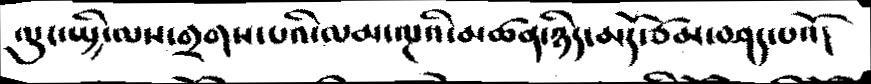ལུང་སྤྱི་ལས་གྲགས་པའི་ལམ་ལྔའི་མཚན་ཉིད་མདོ་ཙམ་བཤད་པའོ།
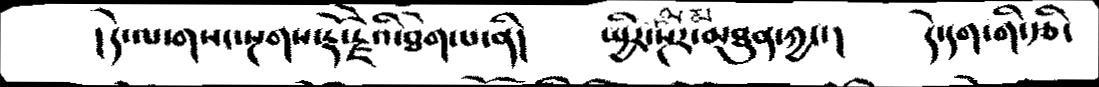།དེ་ལ་གསང་སྔགས་རྡོ་རྗེའི་ཐེག་པ་ནི།   སྤྱིར་ལམ་སྔར་མཐུན་ཀྱང་།   དེ་དག་གི་རྩི་
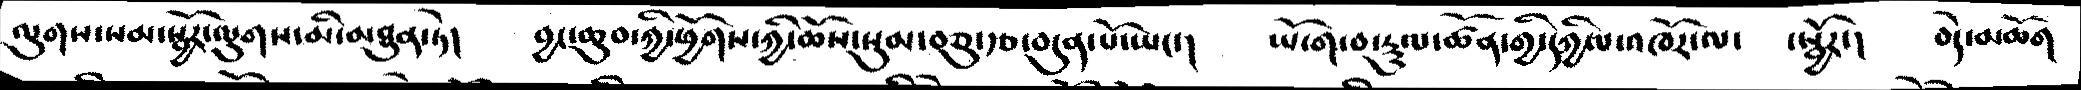ལུགས་སམ་སྦྱོར་ལུགས་མི་མཐུན་ཏེ།   བྱང་ཆུབ་ཀྱི་ཕྱོགས་ཀྱི་ཆོས་སུམ་བཅུ་རྩ་བདུན་པོ་ཡང་།   ཡོ་ག་བ་རྡུལ་ཚོན་གྱི་དཀྱིལ་འཁོར་ལ་  ་སྦྱོར་།  བདེ་མཆོག
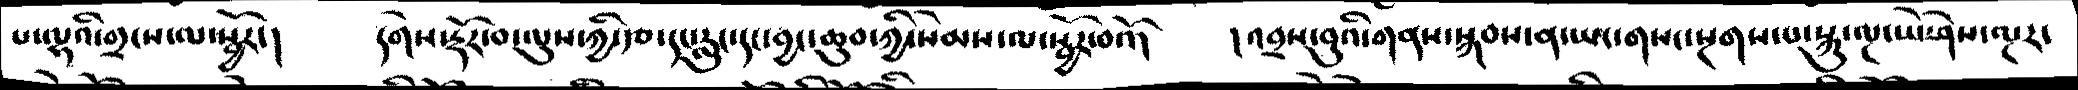པ་ལྷའི་གྲངས་ལ་སྦྱོར་།   དགེས་རྡོར་བ་ལུས་ཀྱི་རྩ་དང་རླུང་དང་བྱང་ཆུབ་ཀྱི་སེམས་ལ་སྦྱོར་བའོ།   །འབྲས་བུའི་གནས་སྐབས་ན་ཡང་གསང་སྔགས་པ་སྐུ་ལྔ་ཡེ་ཤེས་ལྔར་
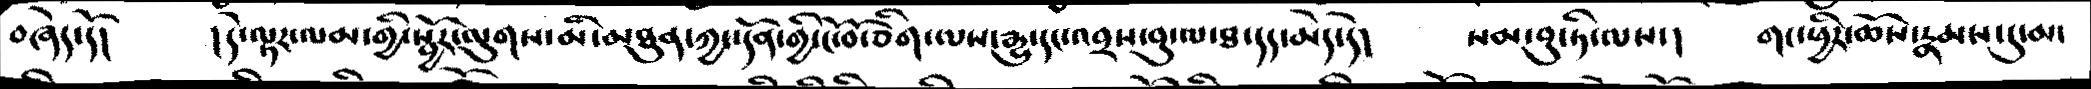བཞེད་དོ།     །དེ་ལྟར་ལམ་གྱི་སྦྱོར་ལུགས་མི་མཐུན་ཀྱང་དོན་གྱི་ངོ་བོ་ཅིག་ལས་རྒྱུ་དང་འབྲས་བུ་ལ་ཐ་དད་མེད་དེ།  སམ་བུ་ཏི་ལས་།   གང་ཕྱིར་ཆོས་ེརྣམས་དུ་མ་
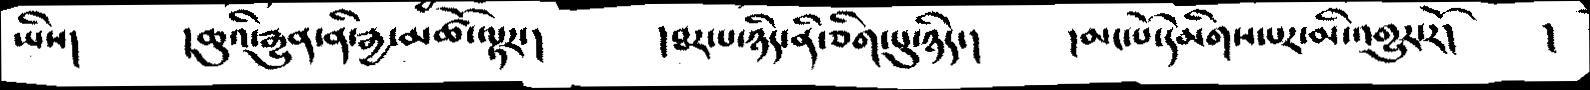ཡིས།    །ཆུའི་རྒྱུན་ནི་རྒྱ་མཚོ་ལྟར་།   །ཐར་པ་ཉིད་ནི་ཅིག་པུ་ཉིད་།   །མང་པོ་དམིགས་པར་མི་འགྱུར་རོ།   །
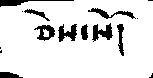ཅེས་སོ།
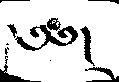༄༅།
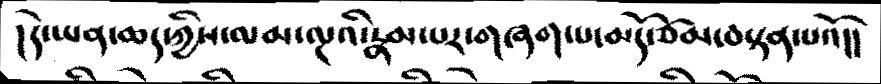།དེ་ཡན་ཆད་ཀྱིས་ལམ་ལྔའི་རྣམ་པར་གཞག་པ་མདོ་ཙམ་བསྟན་པའོ།།
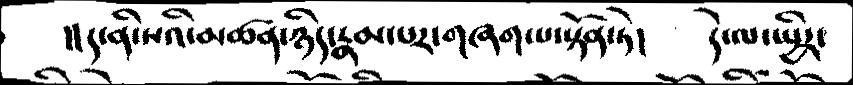།།ད་ནི་སའི་མཚན་ཉིད་རྣམ་པར་གཞག་པ་སྟོན་ཏེ།   དེ་ལ་སྤྱིར་
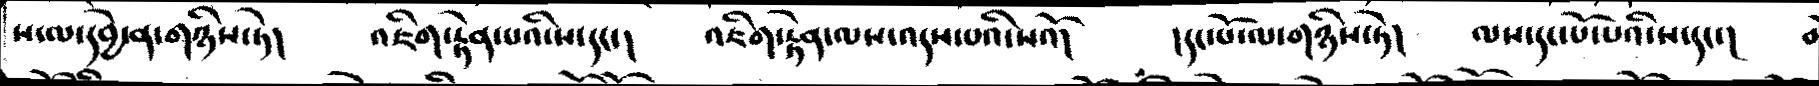ས་ལ་དབྱེ་ན་གཉིས་ཏེ།   འཇིག་རྟེན་པའི་ས་དང་།   འཇིག་རྟེན་ལས་འདས་པའི་སའོ།   །དང་པོ་ལ་གཉིས་ཏེ།   ལས་དང་པོ་པའི་ས་དང་།
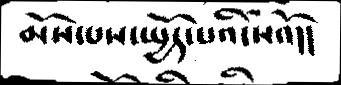མོས་པས་སྤྱོད་པའི་སའོ།།
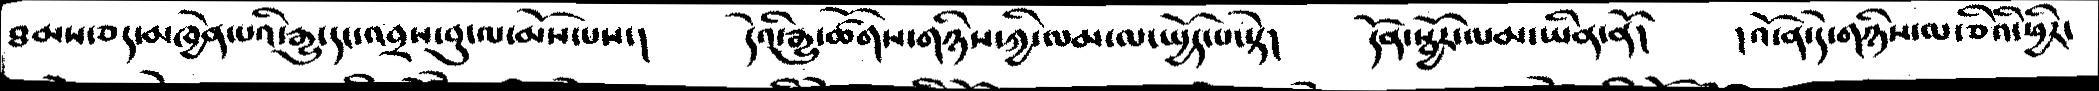ཐམས་ཅད་མཁྱེན་པའི་རྒྱུ་དང་འབྲས་བུ་ལ་མོས་པས་།    དེའི་རྒྱུ་ཚོགས་གཉིས་ཀྱི་ལམ་ལ་སྤྱོད་པ་སྟེ།    དོན་སྦྱོར་ལམ་ཡིན་ནོ།   །འོ་ན་གཉིས་ལ་ཅིའི་ཕྱིར་
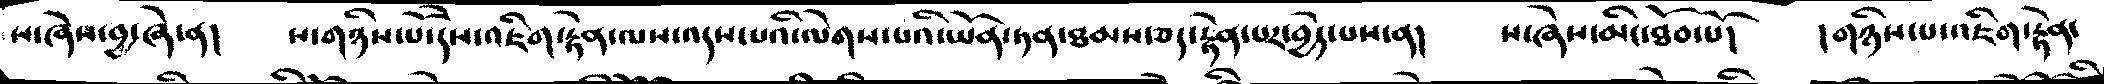ས་ཞེས་བྱ་ཞེ་ན།   ས་གཉིས་པོ་དེས་འཇིག་རྟེན་ལས་འདས་པའི་ལེགས་པའི་ཡོན་ཏན་ཐམས་ཅད་རྟེན་པར་བྱེད་པས་ན།   ས་ཞེས་མིང་ཐོབ་པོ།   །གཉིས་པ་འཇིག་རྟེན་
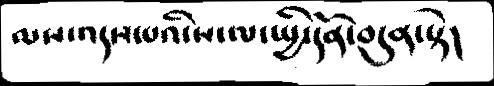མས་འདས་པའི་ས་ལ་སྤྱི་དོན་བདུན་སྟེ།
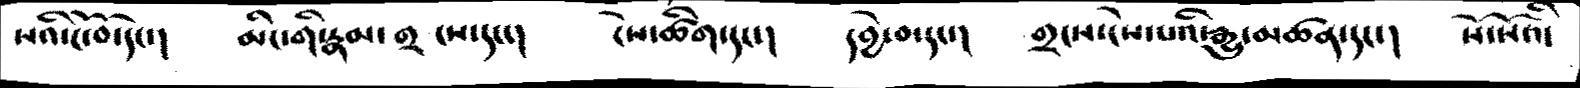སའི་ངོ་བོ་དང་།   མིང་གི་རྣམ་གྲངས་དང་།  ངེས་ཚིག་དང་།   དབྱེ་བ་དང་།   གྲངས་ངེས་པའི་རྒྱུ་མཚན་དང་།   སོ་སོའི་
